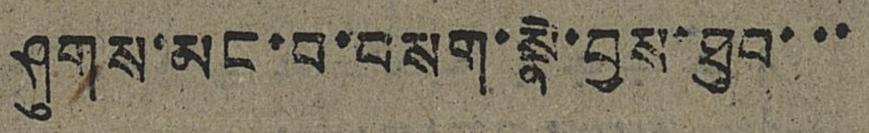ཤུགས་མང་བ་བསག་སྣེ་བྱས་ཐུབ་་་
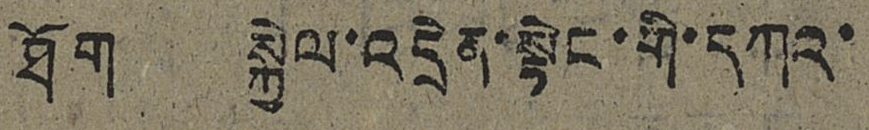ཐོག སྐྱེལ་འདྲེན་སྟེང་གི་དཀའ་
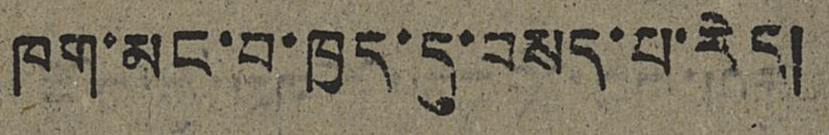ཁག་མང་བ་ཁྱད་དུ་བསད་པ་རེད།
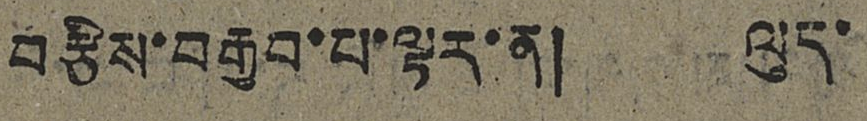བརྩིས་བརྒྱབ་པ་ལྟར་ན། ལུད་
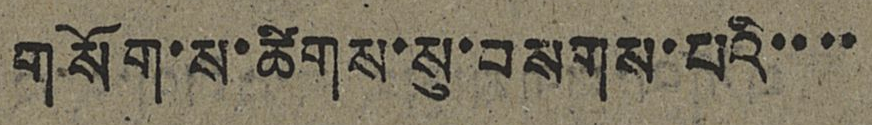གསོག་ས་ཚིགས་སུ་བསགས་པའི་་་་
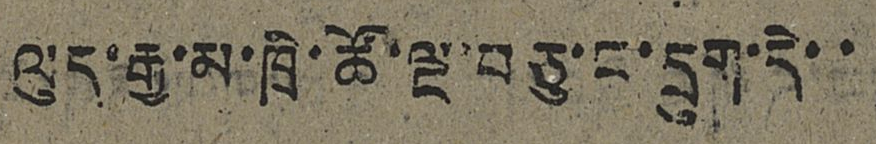ལུད་རྒྱ་མ་ཁྲི་ཚོ་ལྔ་བཅུ་ང་དྲུག་དེ་་
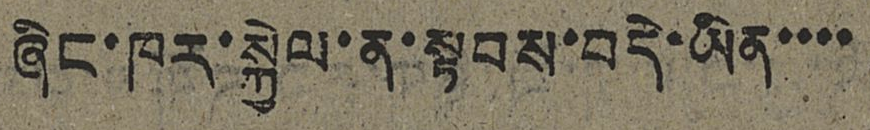ཞིང་ཁར་སྐྱེལ་ན་སྟབས་བདེ་ཡིན་་་་
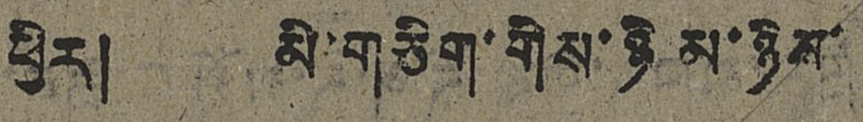ཕྱིར། མི་གཅིག་གིས་ཉི་མ་ཉིས་
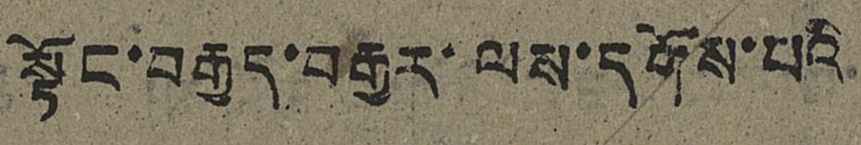སྟོང་བརྒྱད་བརྒྱར་ལས་དགོས་པའི
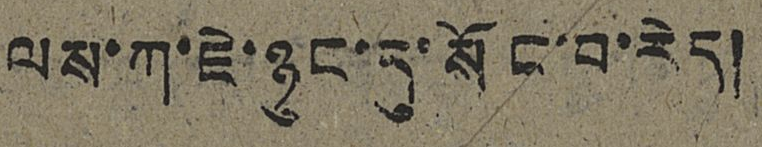ལས་ཀ་ཇེ་ཉུང་དུ་སོང་བ་རེད།
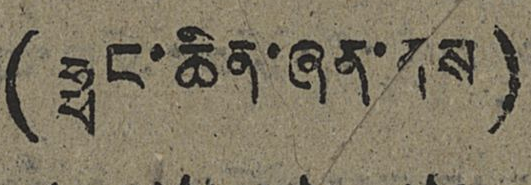(ཧྥང་ཆིན་ཞན་ནས)
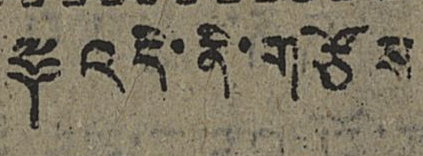༈ འདི་ནི་གཙོས
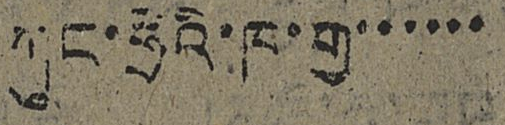ཀུང་ཧྲེའི་ཁ་གྱ་་་་་་
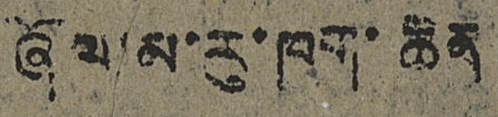ཞོལ་མ་རུ་ཁག་ཆེན
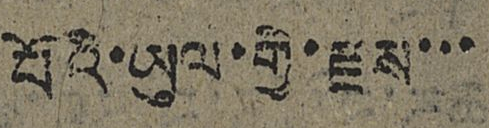པོའི་ཡུལ་གྱི་རྫས་་་
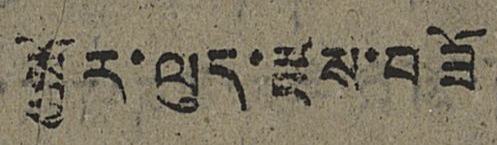སྦྱོར་ལུད་རྫས་བཟོ
